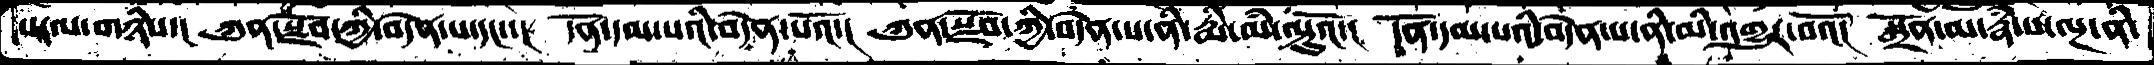པ་ལ་གཉིས་། ཀུན་སྫོབ་ཀྱི་བདེན་པ་དང་་། དོན་དམ་པའི་བདེན་པའོ་། ཀུན་སྫོབ་ཀྱི་བདེན་པ་ནི་རྨི་ལཾ་ལྟུའོ་། དོན་དམ་པའི་བདེན་པ་ནི་མི་འགྱུར་བའོ།  སྒྲོན་མ་རྣཾ་པ་ལྔ་ནི་
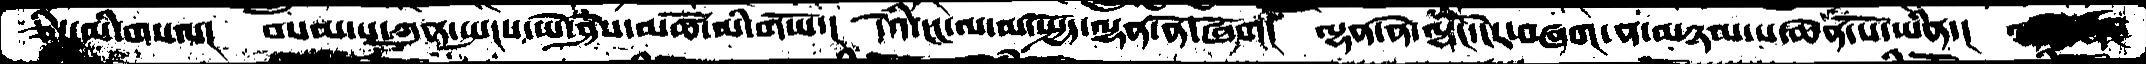ཅིང་མི་གསལ། བསམ་པ་ཀུན་སྤངས་ཡེ་ཤེས་མཚོ་མི་གཡོ་། དེའི་ངང་ལ་མ་སྤྱོད་ལྷན་ནེ་ཞོག། ལྷན་ནེ་ལྷང་ངེར་བཞག་ན་མཉམ་པ་ཆེན་པོ་ཡིན་།
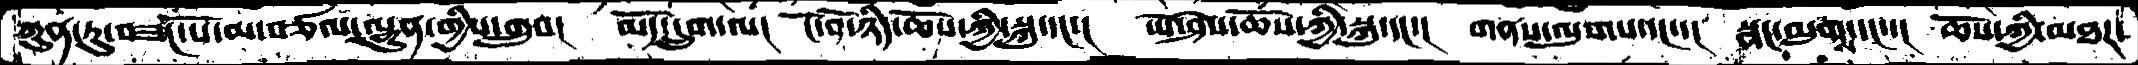ཀུན་ཏུ་བཟང་པོ་མ་བཙལ་ལྷུན་གྱིས་གྲུབ།  མདོ་དྲུག་ལ།  ངོ་བོ་ཉིད་ཆོས་ཀྱི་སྐུ་དང་།  ཡེ་ཤེས་ཆོས་ཀྱི་སྐུ་དང་།  གནས་ལུགས་དང་་།  སྣང་ལུག་དང་་།  ཆོས་ཀྱི་མཐར་
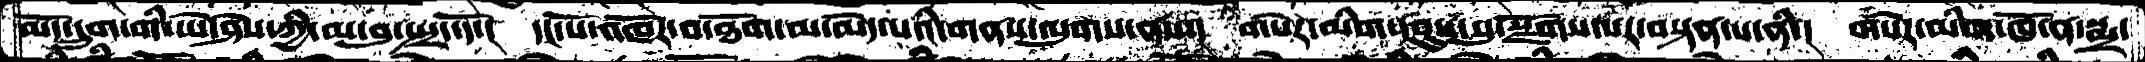མདོ་དྲུག་གི་ཡེ་ཤེས་ཀྱི་མ་བུ་སྤྲད་དོ་།  དང་པོ་འཁོར་བ་ཐོག་མ་མེད་པའི་གནས་ལུགས་ནས་།  གསེར་མིག་དབུས་སུ་སྫོགས་པར་བསྟན་པ་ནི་།  གསེར་མིག་ཁོ་ན་སྨྲ་
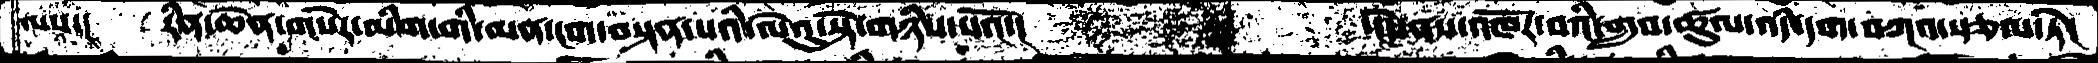ལས་།  རིན་ཆེན་གསེར་མིག་གི་མན་ངག་བསྟན་པའི་ལེའུ་སྟེ་གཉིས་པའོ་།      ་།དེ་ནས་འཁོར་བའི་གྲུབ་ཚུལ་འདི་དག་བཀའ་སྩལ་ཏེ།
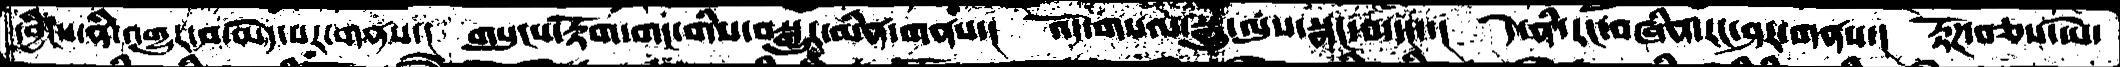དབྱིངས་ནི་འགྱུར་བ་མེད་པར་གནས་།  གསུངས་རྟོག་གང་གིས་བསྒྱུར་མིན་གནས་།  འོད་གསལ་སྒྱུ་ལུས་སྣང་བ་དང་་།  དེ་ནི་རང་བཞིན་རང་ཤར་གནས་།  རྟོཌ་བཅས་ཡེ་
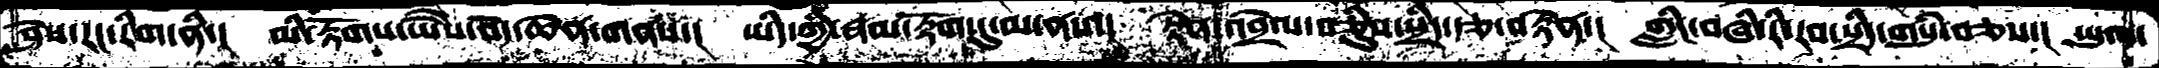ཤེས་རང་རིག་་ནི་།  མི་རྟོགས་ཡཻས་བདེ་ཆེན་གནས་།  ཡིད་གྱི་རྣམ་རྟོག་དུ་མ་ནས་།  རྟེན་འབྲེལ་བཅིུས་སྲིད་རྩ་བརྟེན་།  གླིང་བཞི་རི་རབ་སྲིད་གསུཾ་བཅས་།  ཡུལ་
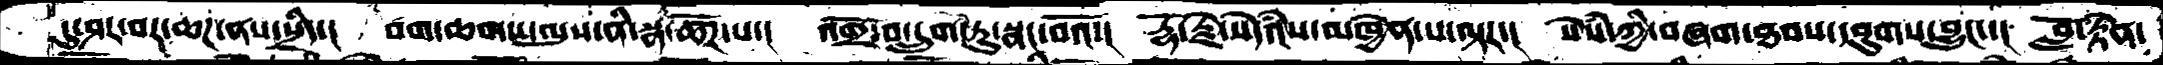དུ་ཤར་བར་ཆཌ་ནས་སྲིད་།  བག་ཆགས་ལུས་ནི་སྣ་ཚོཌ་པ་།  འགྲོ་བ་དྲུག་ཏུ་སྣང་བའོ་།  རྡོ་རྗེ་སེདཾའས་མཁྱེན་པ་ལྟར་།  སེསཾ་ཀྱི་བཞག་ཐབས་དབུགས་བྱུང་་།  བློ་རྟེན་
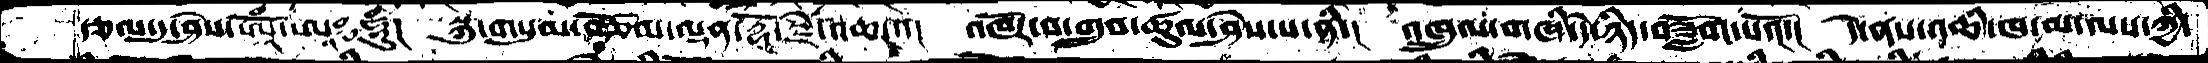རྩལ་དུ་ཤེས་ཨཱོཾ་ཨཱཿཧཱུཾ།  སྐུ་གསུམ་བཅོམ་ལྡན་རྡོ་རྗེ་འཆང་་།  འཁོར་བ་གྲུབ་ཚུལ་ཤེས་པ་ནི་།  འཁྲུལ་གཞི་དེ་ཉིད་བཟློག་པའོ་།  དེ་ནས་འཆི་ཁ་མ་ལས་ཀྱི་
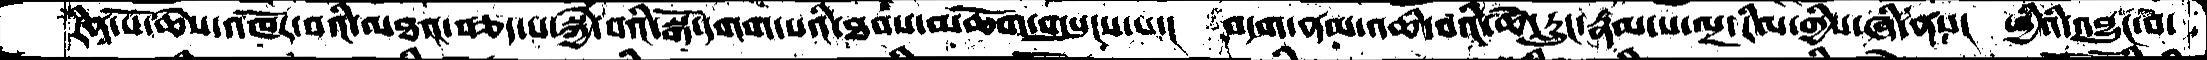རིན་པོ་ཆེས་འཁོར་བའི་མཐའ་བཅད་པ་སྐྱེ་བའི་སྒོ་དགག་པའི་ཐབས་མཆོག་གསུངས་པ་།  བདག་ནམ་འཆི་བའི་ཚེ་རླུང་རྣམ་པ་ལྔ་རིམ་གྱིས་ཞི་ནས།  ཕྱིའི་འབྱུང་བ་
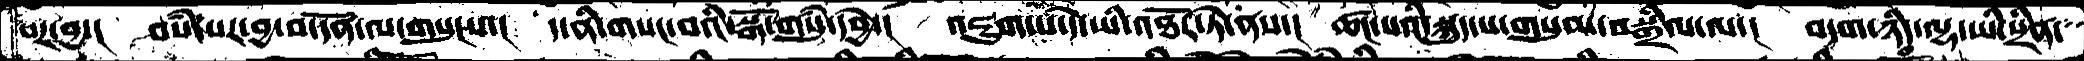པར་བྱ་།  བསཾ་པར་བྱ་བ་དོན་ལ་གསུངས་།  ད་ནི་གསང་བའི་སྒོ་གསུཾ་དབྱེ་།  འཇུག་པ་དེ་ཡི་འཐོར་ཏེ་ནས་།  ཚང་པའིི་སྐུད་པ་གསུམ་བསྒྲིལ་ལ་།  བདག་ཉིད་ལྷ་ཡི་སྲིན་
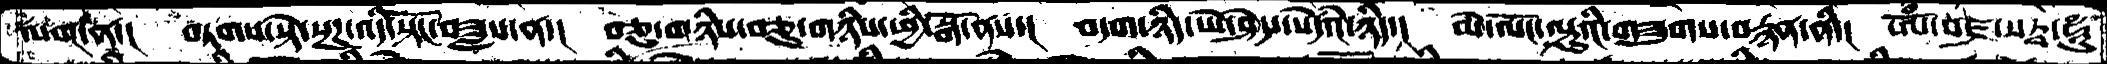ལག་ན་།  བཏགས་སྟེ་སྔཌ་འདི་སྟོང་བཟླས་ན་།  བཅུ་གཉིས་བཅུ་གཉིས་ཕྱི་སྒོ་ནས་།  བདག་ཉིད་ཡེ་ཤེས་སེཾདའ་ཉིད་།  མེ་ལོང་ལྟུའི་གཟུགས་བརྙན་ནི་།  ཨོཾ་བཛྲ་སཏྭ་ཧཱུྃ
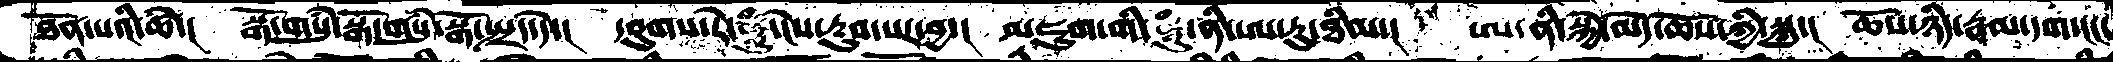ཐོན་པའི་ཚེ་།  སྒོ་གསུཾ་སྒོ་གསུཾ་སྒོ་སྤྲད་དེ་།  དབུགས་རེ་ཧཱུཾ་ངེས་རྔུབ་པར་བྱ་།  མཛུག་གི་ཧཱུཾ་ནི་ཨ་རུ་ཐིམ་།  ཨ་ནི་སྐྱེ་མེད་ཆོས་ཀྱི་སྐུ་།  ཆོས་ཉིད་རྣམ་དག་ངང་
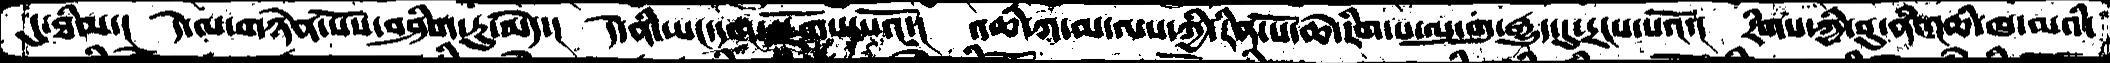དུ་ཐིམ་།  དེ་ལ་གཉེན་པོས་བཤིག་ཏུ་མེད་།  དེ་ནི་ཡང་དག་སྫོགས་པའོ་།  འཆི་ཀ་མ་ལས་ཀྱི་རིན་པོ་ཆེ་རིག་པ་ལུ་གུ་རྒྱུད་དུ་དྲངས་པའོ་།  རིགས་ཀྱི་བུ་ནཾ་འཆི་ཁ་མའི་
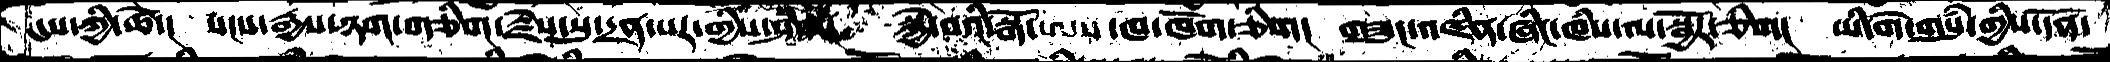དུས་ཀྱི་ཚེ་། སངས་རྒྱས་ཉག་གཅིག་རྗེས་སུ་དྲན་པར་གྱིས་ཤིག། སྐྱེ་བའི་སྒོ་ཨས་ཁ་ཁོག་ཅིག། གཟུང་འཛིན་ཞིང་ཁཾས་ལ་སྦྱོར་ཅིག། ཡི་གེ་གསུཾ་གྱིས་དོན་
